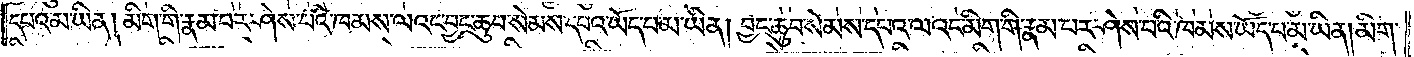དཔའ་མ་ཡིན། མིག་གི་རྣམ་པར་ཤེས་པའི་ཁམས་ལའང་བྱང་ཆུབ་སེམས་དཔའ་ཡོད་པ་མ་ཡིན། བྱང་ཆུབ་སེམས་དཔའ་ལའང་མིག་གི་རྣམ་པར་ཤེས་པའི་ཁམས་ཡོད་པ་མ་ཡིན། མིག་
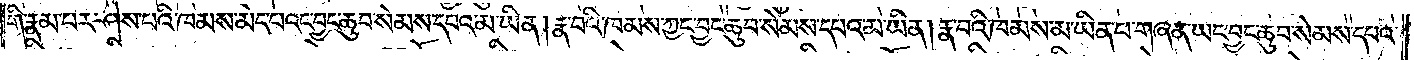གི་རྣམ་པར་ཤེས་པའི་ཁམས་མེད་པའང་བྱང་ཆུབ་སེམས་དཔའ་མ་ཡིན། རྣ་བའི་ཁམས་ཀྱང་བྱང་ཆུབ་སེམས་དཔའ་མ་ཡིན། རྣ་བའི་ཁམས་མ་ཡིན་པ་གཞན་ཡང་བྱང་ཆུབ་སེམས་དཔའ་
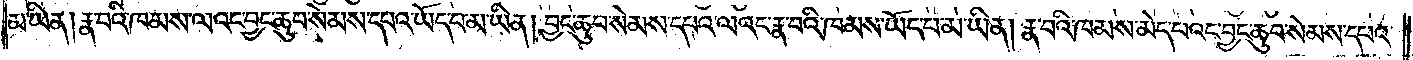མ་ཡིན། རྣ་བའི་ཁམས་ལའང་བྱང་ཆུབ་སེམས་དཔའ་ཡོད་པ་མ་ཡིན། བྱང་ཆུབ་སེམས་དཔའ་ལའང་རྣ་བའི་ཁམས་ཡོད་པ་མ་ཡིན། རྣ་བའི་ཁམས་མེད་པའང་བྱང་ཆུབ་སེམས་དཔའ་
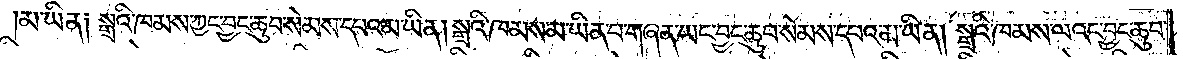མ་ཡིན༑ སྒྲའི་ཁམས་ཀྱང་བྱང་ཆུབ་སེམས་དཔའ་མ་ཡིན། སྒྲའི་ཁམས་མ་ཡིན་པ་གཞན་ཡང་བྱང་ཆུབ་སེམས་དཔའ་མ་ཡིན། སྒྲའི་ཁམས་ལའང་བྱང་ཆུབ་
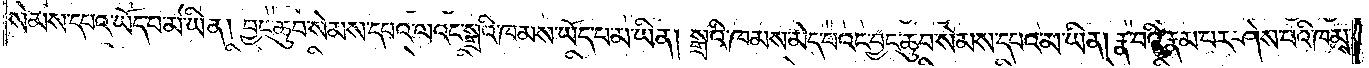སེམས་དཔའ་ཡོད་པ་མ་ཡིན། བྱང་ཆུབ་སེམས་དཔའ་ལའང་སྒྲའི་ཁམས་ཡོད་པ་མ་ཡིན། སྒྲའི་ཁམས་མེད་པའང་བྱང་ཆུབ་སེམས་དཔའ་མ་ཡིན། རྣ་བའི་རྣམ་པར་ཤེས་པའི་ཁམས་
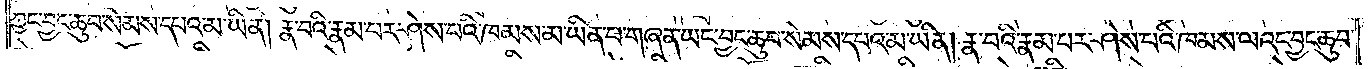ཀྱང་བྱང་ཆུབ་སེམས་དཔའ་མ་ཡིན། རྣ་བའི་རྣམ་པར་ཤེས་པའི་ཁམས་མ་ཡིན་པ་གཞན་ཡང་བྱང་ཆུབ་སེམས་དཔའ་མ་ཡིན། རྣ་བའི་རྣམ་པར་ཤེས་པའི་ཁམས་ལའང་བྱང་ཆུབ་
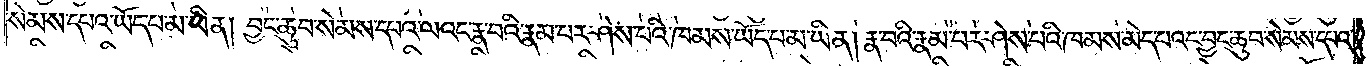སེམས་དཔའ་ཡོད་པ་མ་ཡིན། བྱང་ཆུབ་སེམས་དཔའ་ལའང་རྣ་བའི་རྣམ་པར་ཤེས་པའི་ཁམས་ཡོད་པ་མ་ཡིན། རྣ་བའི་རྣམ་པར་ཤེས་པའི་ཁམས་མེད་པའང་བྱང་ཆུབ་སེམས་དཔའ་
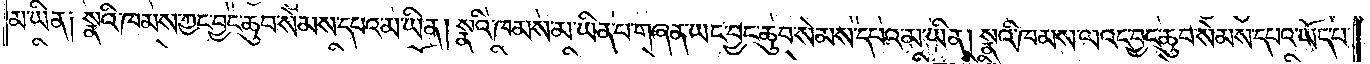མ་ཡིན། སྣའི་ཁམས་ཀྱང་བྱང་ཆུབ་སེམས་དཔའ་མ་ཡིན། སྣའི་ཁམས་མ་ཡིན་པ་གཞན་ཡང་བྱང་ཆུབ་སེམས་དཔའ་མ་ཡིན། སྣའི་ཁམས་ལའང་བྱང་ཆུབ་སེམས་དཔའ་ཡོད་པ་
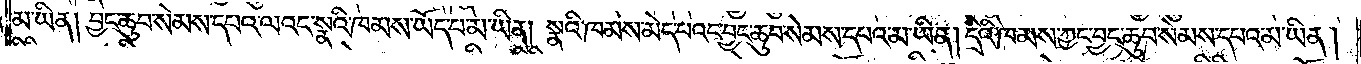མ་ཡིན། བྱང་ཆུབ་སེམས་དཔའ་ལའང་སྣའི་ཁམས་ཡོད་པ་མ་ཡིན། སྣའི་ཁམས་མེད་པའང་བྱང་ཆུབ་སེམས་དཔའ་མ་ཡིན། དྲིའི་ཁམས་ཀྱང་བྱང་ཆུབ་སེམས་དཔའ་མ་ཡིན།
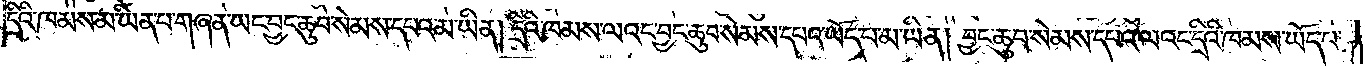དྲིའི་ཁམས་མ་ཡིན་པ་གཞན་ཡང་བྱང་ཆུབ་སེམས་དཔའ་མ་ཡིན། དྲིའི་ཁམས་ལའང་བྱང་ཆུབ་སེམས་དཔའ་ཡོད་པ་མ་ཡིན། བྱང་ཆུབ་སེམས་དཔའ་ལའང་དྲིའི་ཁམས་ཡོད་པ་
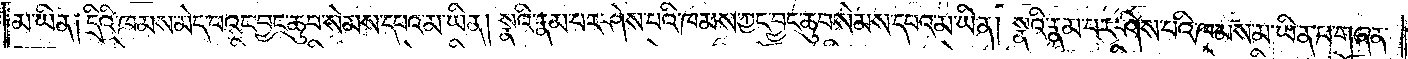མ་ཡིན༑ དྲིའི་ཁམས་མེད་པའང་བྱང་ཆུབ་སེམས་དཔའ་མ་ཡིན། སྣའི་རྣམ་པར་ཤེས་པའི་ཁམས་ཀྱང་བྱང་ཆུབ་སེམས་དཔའ་མ་ཡིན། སྣའི་རྣམ་པར་ཤེས་པའི་ཁམས་མ་ཡིན་པ་གཞན་
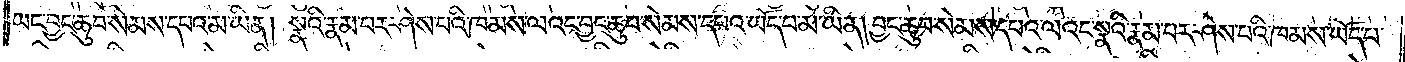ཡང་བྱང་ཆུབ་སེམས་དཔའ་མ་ཡིན། སྣའི་རྣམ་པར་ཤེས་པའི་ཁམས་ལའང་བྱང་ཆུབ་སེམས་དཔའ་ཡོད་པ་མ་ཡིན། བྱང་ཆུབ་སེམས་དཔའ་ལའང་སྣའི་རྣམ་པར་ཤེས་པའི་ཁམས་ཡོད་པ་
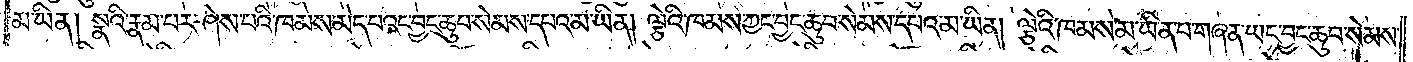མ་ཡིན། སྣའི་རྣམ་པར་ཤེས་པའི་ཁམས་མེད་པའང་བྱང་ཆུབ་སེམས་དཔའ་མ་ཡིན། ལྕེའི་ཁམས་ཀྱང་བྱང་ཆུབ་སེམས་དཔའ་མ་ཡིན། ལྕེའི་ཁམས་མ་ཡིན་པ་གཞན་ཡང་བྱང་ཆུབ་སེམས་
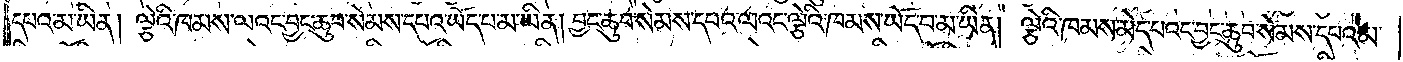དཔའ་མ་ཡིན། ལྕེའི་ཁམས་ལའང་བྱང་ཆུབ་སེམས་དཔའ་ཡོད་པ་མ་ཡིན། བྱང་ཆུབ་སེམས་དཔའ་ལའང་ལྕེའི་ཁམས་ཡོད་པ་མ་ཡིན། ལྕེའི་ཁམས་མེད་པའང་བྱང་ཆུབ་སེམས་དཔའ་མ་
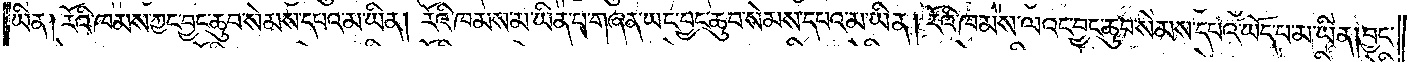ཡིན། རོའི་ཁམས་ཀྱང་བྱང་ཆུབ་སེམས་དཔའ་མ་ཡིན། རོའི་ཁམས་མ་ཡིན་པ་གཞན་ཡང་བྱང་ཆུབ་སེམས་དཔའ་མ་ཡིན། རོའི་ཁམས་ལའང་བྱང་ཆུབ་སེམས་དཔའ་ཡོད་པ་མ་ཡིན། བྱང་
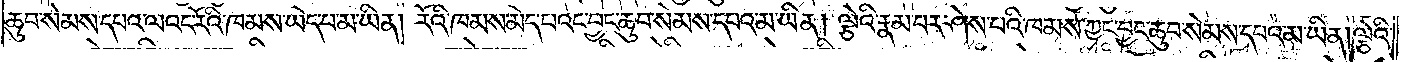ཆུབ་སེམས་དཔའ་ལའང་རོའི་ཁམས་ཡོད་པ་མ་ཡིན། རོའི་ཁམས་མེད་པའང་བྱང་ཆུབ་སེམས་དཔའ་མ་ཡིན། ལྕེའི་རྣམ་པར་ཤེས་པའི་ཁམས་ཀྱང་བྱང་ཆུབ་སེམས་དཔའ་མ་ཡིན། ལྕེའི་
